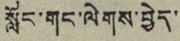སློང་གང་ལེགས་བྱེད་
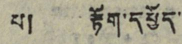པ། རྟོག་དཔྱོད་
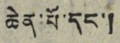ཆེན་པོ་དང་།
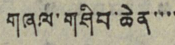གཞལ་གཤིབ་ཆེན་་་་
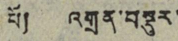པོ། འགྲན་བསྡུར་
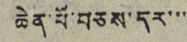ཆེན་པོ་བཅས་དར་་་
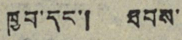ཁྱབ་དང་། ཐབས་
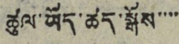ཚུལ་ཡོད་ཚད་སྒོས་་་་་
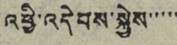འཕྱི་འདེབས་སྐྱེས་་་་་
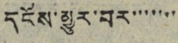དངོས་མྱུར་བར་་་་་་་
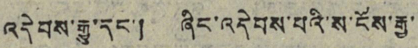འདེབས་རྒྱུ་དང་། ཞིང་འདེབས་པའི་ས་ངོས་རྒྱ་
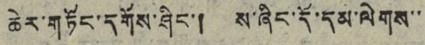ཆེར་གཏོང་དགོས་ཤིང་། ས་ཞིང་དོ་དམ་ལེགས་་
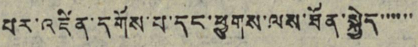པར་འཛིན་དགོས་པ་དང་ཕྱུགས་ལས་ཐོན་སྐྱེད་་་་་་
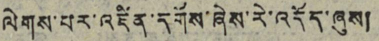ལེགས་པར་འཛིན་དགོས་ཞེས་རེ་འདོད་ཞུས།
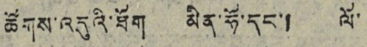ཚོགས་འདུའི་ཐོག མིན་ཧོ་དང་། ལོ་
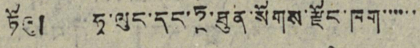ཏོའུ། ཧྭ་ལུང་དད་ཏཱ་ཐུན་སོགས་རྫོང་ཁག་་་་་་
